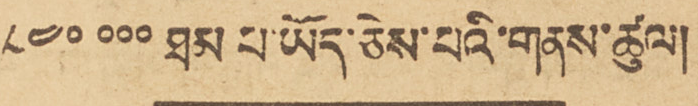༨༤༠༠༠༠ ཐམ པ་ཡོད་ཅེས་པའི་གནས་ཚུལ།
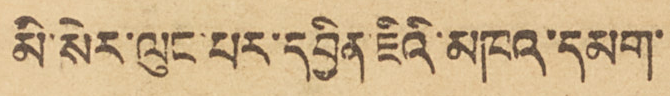མི་སེར་ལུང་པར་དབྱིན་ཇིའི་མཁའ་དམག་
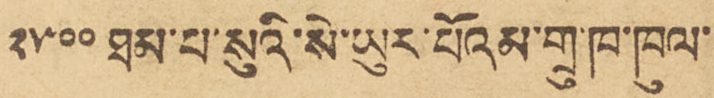༢༥༠༠ ཐམ་པ་སུའི་སེ་ཡུར་པོའམ་གྲུ་ཁ་ཁུལ་
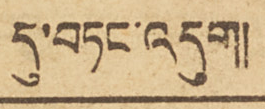དུ་བཏང་འདུག།།
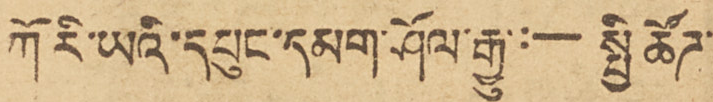ཀོ རི་ཡའི་དཔུང་དམག་ཤོལ་རྒྱུ་:—སྤྱི ཚོཌ་
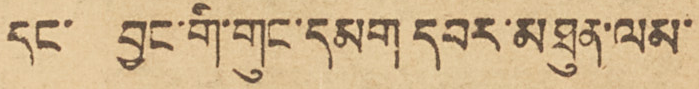དང་ བྱང་གི་གུང་དམག དབར་མཐུན་ལམ་
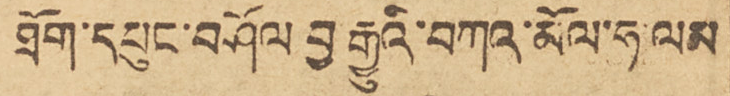ཐོག་དཔུང་བཤོལ བྱ་རྒྱུའི་བཀའ་མོལ་ཧ་ལམ
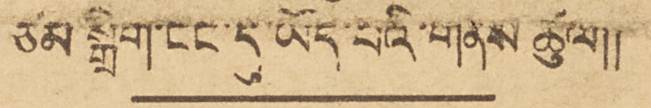ཙམ སྒྲིག་ངང་དུ་ཡོད་པའི་གནས ཚུལ།
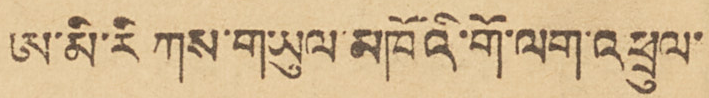ཨ་མི་རི ཀས་གཡུལ་མཁོའི་གོ་ལག་འཕྲུལ་
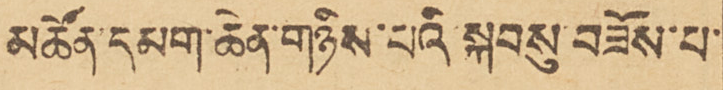མཚོན་དམག་ཆེན་གཉིས་པའི སྐབསུ་བཟོས་པ་
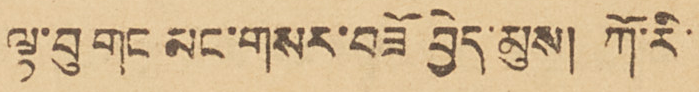ལྟ་བུ གང མང་གསར་བཟོ བྱེད་མུས། ཀོ་རི་
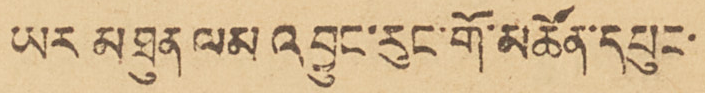ཡར མཐུན ལམ འབྱུང་རུང་གོ་མཚོན་དཔུང་
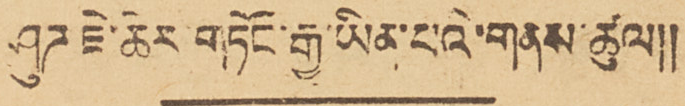ཤུཌ ཇེ་ཆེར་གཏོང་རྒྱུ་ཡིན་པའི་གནས་ཚུལ།།
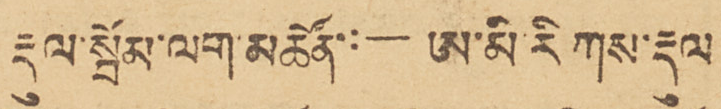རྡུལ་སྦོམ་ལག་མཚོན་:—ཨ་མི་རི ཀས་རྡུལ
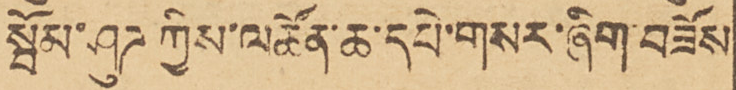སྦོམ་ཤུཌ ཀྱིས་ལཚོན་ཆ་དཔེ་གསར་ཞིག་བཟོས
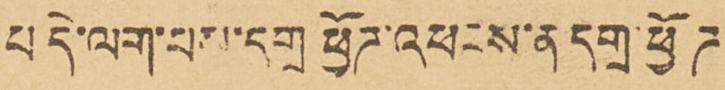པ དེ་ལག་པས་དགྲ ཕྱོཌ་འཕངས་ན་དགྲ་ཕྱོཌ
